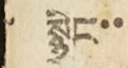་སྙིང་་
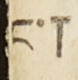ང་།
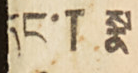དང་། སྣ
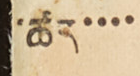་ཚད་་་་
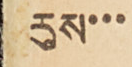རུས་་་
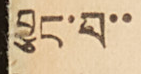བྱུང་བ་་
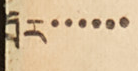བོར་་་་་་
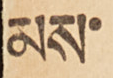མས་
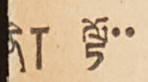ནི། ལྟོ་་
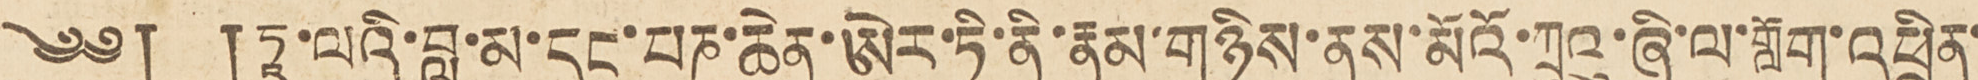༄༅། །ཏཱ་ལའི་བླ་མ་དང་པཎ་ཆེན་ཨེར་ཏི་ནི་རྣམ་གཉིས་ནས་མོའོ་ཀྲུའུ་ཞི་ལ་གློག་འཕྲིན་
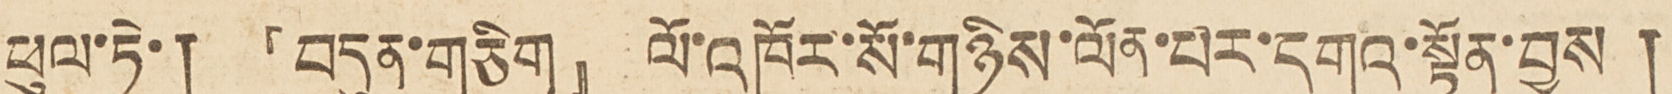ཕུལ་ཏེ་། 『བདུན་གཅིག་』 ལོ་འཁོར་སོ་གཉིས་ལོན་པར་དགའ་སྟོན་བྱས །
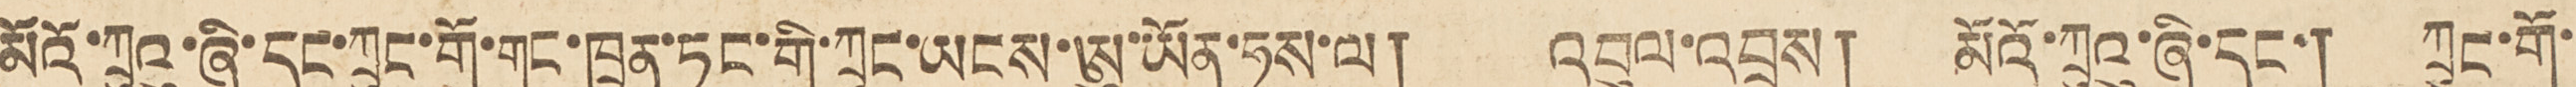མོའོ་ཀྲུའུ་ཞི་དང་ཀྲུང་གོ་གུང་ཁྲན་ཏང་གི་ཀྲུང་ཡངས་ཨུ་ཡོན་ཧུས་ལ། འབུལ་འབྲས། མའོ་ཀྲུའུ་ཞི་དང་། ཀྲུང་གོ་
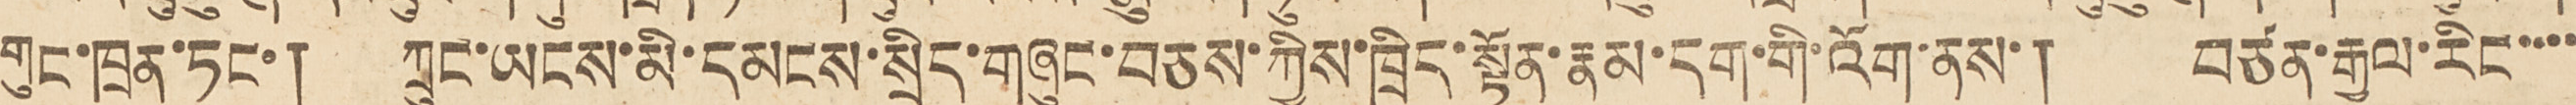གུང་ཁྲན་ཏང་། ཀྲུང་ཡངས་མི་དམངས་སྲིད་གཞུང་བཅས་ཀྱིས་ཁྲིད་སྟོན་རྣམ་དག་གི་འོག་ནས་། བཙན་རྒྱལ་རིང་་་་
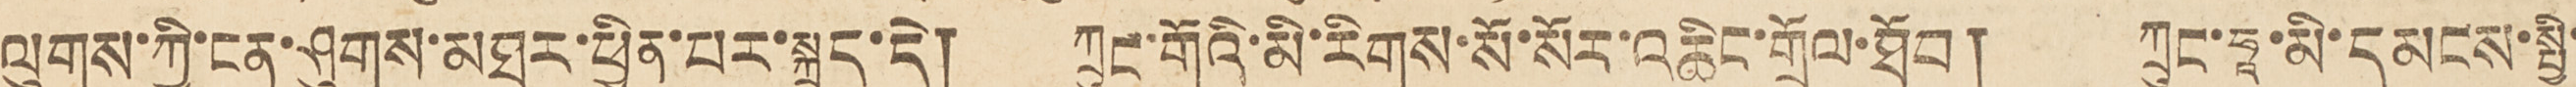ལུགས་ཀྱི་ངན་ཤུགས་མཐར་ཕྱིན་པར་སྐྲད་དེ། ཀྲུང་གོའི་མི་རིགས་སོ་སོར་འཆིང་གྲོལ་ཐོབ། ཀྲུང་ཧཱ་མི་དམངས་སྤྱི་
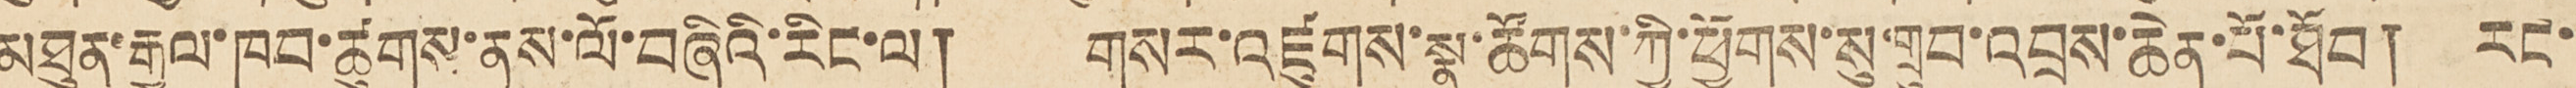མཐུན་རྒྱལ་ཁབ་ཚུགས་ནས་ལོ་བཞིའི་རིང་ལ། གསར་འཛུགས་སྣ་ཚོགས་ཀྱི་ཕྱོགས་སུ་གྲུབ་འབྲས་ཆེན་པོ་ཐོབ། རང་
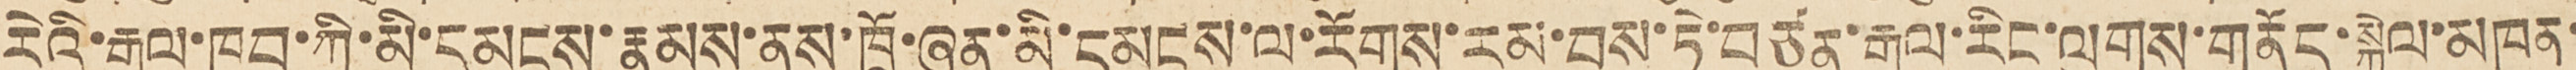རེའི་རྒྱལ་ཁབ་ཀྱི་མི་དམངས་རྣམས་ནས་ཁྲོ་ཞན་མི་དམངས་ལ་རོགས་རམ་བྱས་ཏེ་བཙན་རྒྱལ་རིང་ལུགས་གནོད་སྐྱེལ་མཁན་
